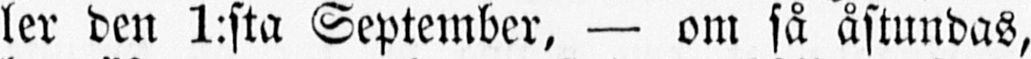ler den 1:sta September, — om så åstundas,
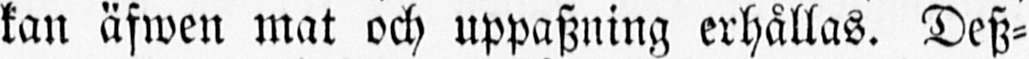kan äfwen mat och uppaszning erhållas. Desz-
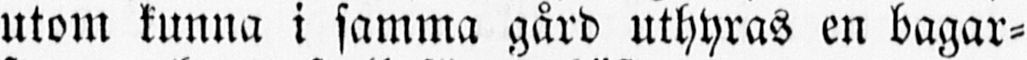utom kunna i samma gård uthyras en bagar-
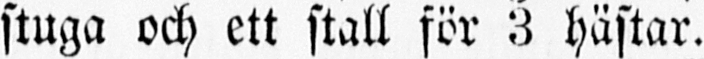stuga och ett stall för 3 hästar.
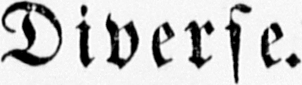Diverse.
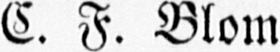C. F. Blom
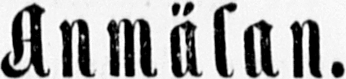Anmälan.
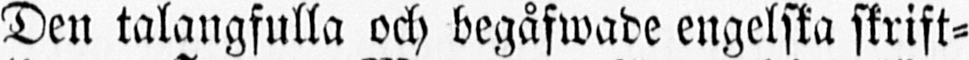Den talangfulla och begåfwade engelska skrift-
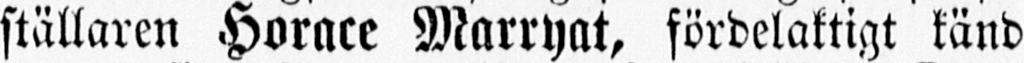ställaren Horace Marryat, fördelaktigt känd
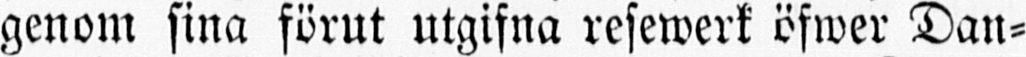genom sina förut utgifna resewerk öfwer Dan-
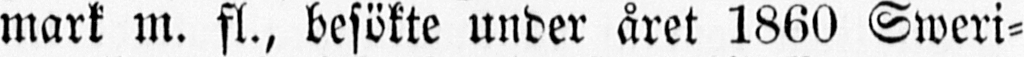mark m. fl., besökte under året 1860 Sweri-
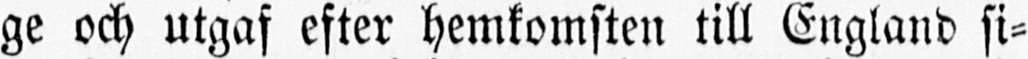ge och utgaf efter hemkomsten till England si-
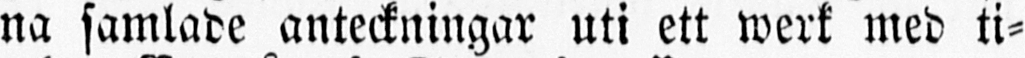na samlade anteckningar uti ett werk med ti-
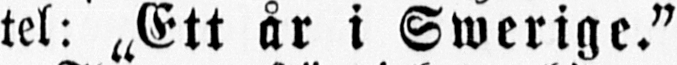tel: "Ett år i Swerige."
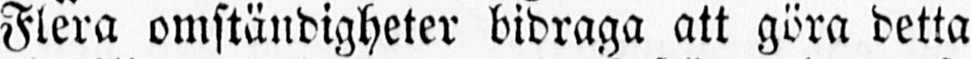Flera omständigheter bidraga att göra detta
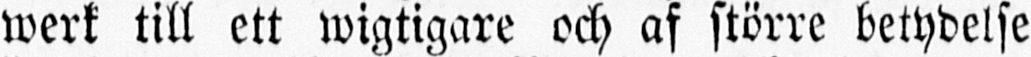werk till ett wigtigare och af större betydelse
